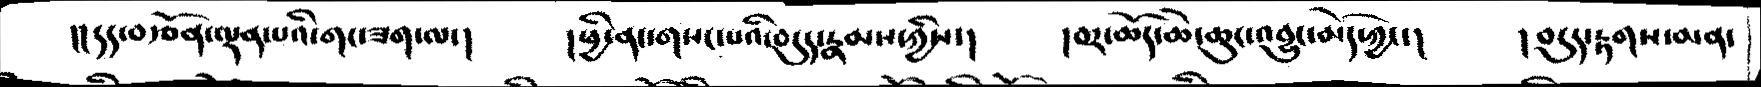།།དད་བརྩོན་ལྡན་པའི་གང་ཟག་ལ་།  །ཕྱི་ནང་གསང་པའི་བདུད་རྣམས་ཀྱིས་།   །བར་ཆོད་ཆེ་ཆུང་འབྱུང་མོད་ཀྱང་།   །བདུད་རྟགས་མན་
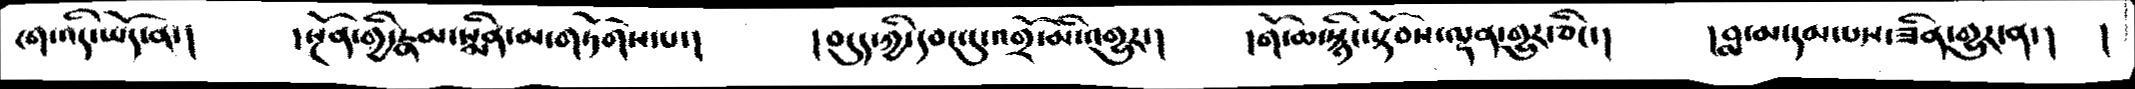ངག་འདི་ཡོད་ན་།   །སྔོན་གྱི་རྣམ་སྨིན་མ་གཏོགས་པ་།   །བདུད་ཀྱི་དབང་དུ་འགྲོ་མི་འགྱུར་།   །གོ་ཆ་སྙིང་སྟོབས་ལྡན་གྱུར་ཅིང་།   །བླ་མ་དམ་པས་ཟིན་གུར་ན་།   །
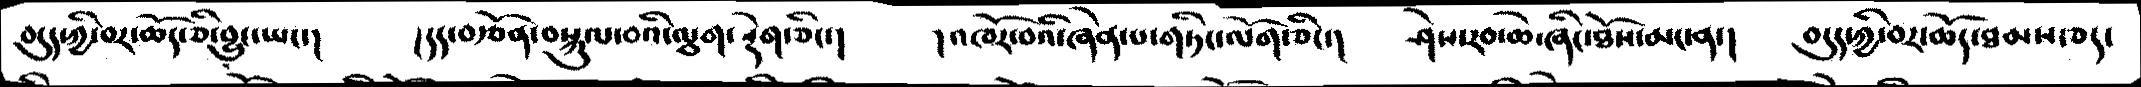བདུད་ཀྱི་བར་ཆོད་ཅི་བྱུང་ཡང་།   །དད་བརྩོན་བསྐུལ་བའི་ལྕག་སྡེག་ཅིང་།   །འཁོར་བའི་ཞེན་པ་གཏིང་ལོག་ཅིང་།   ཤེས་རབ་ཆེ་ཞིང་ཐོས་མང་ན་།  བདུད་ཀྱི་བར་ཆོད་ཐམས་ཅད་
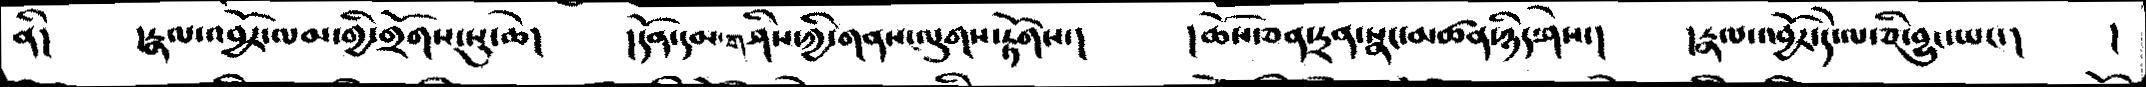ནི།   རྣལ་འབྱོར་ལམ་གྱི་གྲོགས་སུ་ཆེ།  དདོན་དམ་གཤིས་ཀྱི་གནས་ལུགས་རྟོགས་།   །ཆོས་ཅན་དྲན་སྣང་མཚན་ཉིད་ཤེས་།   །རྣལ་འབྱོར་དེ་ལ་ཅི་བྱུང་ཡང་།   །
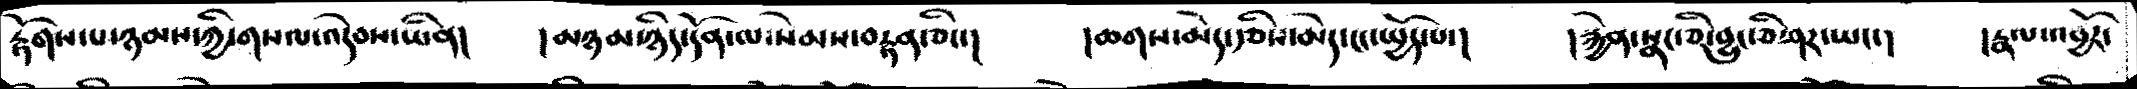རྟོགས་པ་ཉམས་ཀྱི་གསལ་འདེབས་ཡིན།   །མཉམ་ཉིད་དོན་ལ་སེམས་བརྟན་ཅིང་།   །ཆགས་མེད་རྩིས་མེད་ངང་སྤྱོད་པ་།   །རྐྱེན་སྣང་ཅི་བྱུང་ཅི་ཤར་ཡང་།   །རྣལ་འབྱོར་
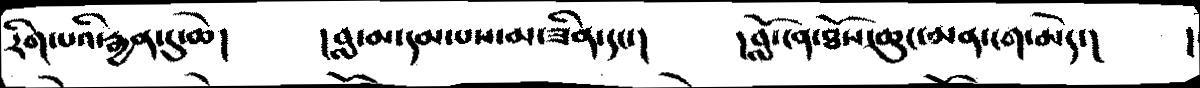རིགས་པའི་རྒྱན་དུ་ཆེ།   །བླ་མ་དམ་པས་མ་ཟིན་དང་།   །བློ་ངན་ཐོས་ཆུང་མན་ངག་མེད་།   །
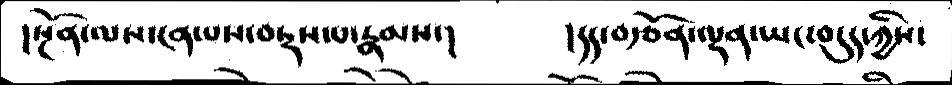།སྔོན་ལས་ངན་པས་བརྡས་པ་རྣམས་།   །དད་བརྩོན་ལྡན་ཡང་བདུད་ཀྱིས་
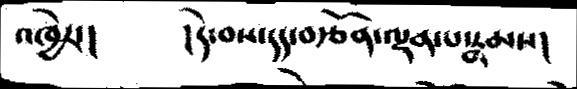འཁྱེར་།   །དེ་བས་དད་བརྩོན་ལྡན་པ་རྣམས།
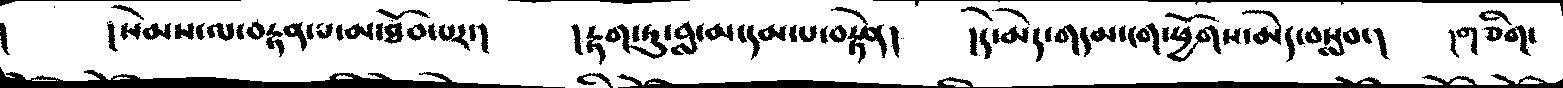།   །སེམས་ལ་བརྟན་པ་མ་ཐོབ་པར་།   །རྟག་ཏུ་བླ་མ་དམ་པ་བསྟེན།   །དེ་མེད་གདན་ངག་ཕྱོགས་མེད་བསླབ་།   །གཅིག་
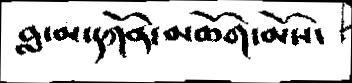བླ་མ་དཀོན་མཆོག་མོས་
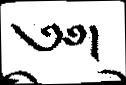༄༅།
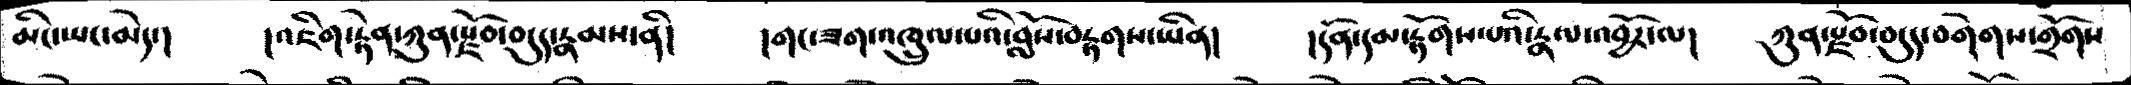མིང་ཡང་མེད་།   །འཇིག་རྟེན་ཀུན་རྫོབ་བདུད་རྣམས་ནི།   །གང་ཟག་འཁྲུལ་པའི་བློས་བརྟགས་ཡིན།   །དོན་དམ་རྟོགས་པའི་རྣལ་འབྱོར་ལ།   ཀུན་རྫོབ་བདུད་བགེགས་གྲོགས
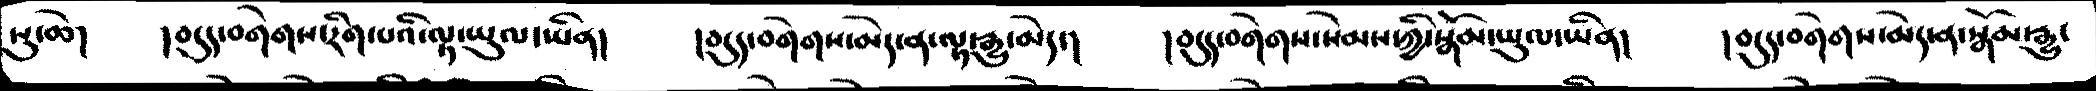སུ་ཆེ།   །བདུད་བགེགས་རིགས་པའི་ལྟ་ཡུལ་ཡིན།   །བདུད་བགེགས་མེད་ན་ལྟ་རྒྱུ་མེད་།   །བདུད་བགེགས་སེམས་ཀྱི་སྣོམ་ཡུལ་ཡིན།   །བདུད་བགེགས་མེད་ན་སྒོམ་རྒྱུ་
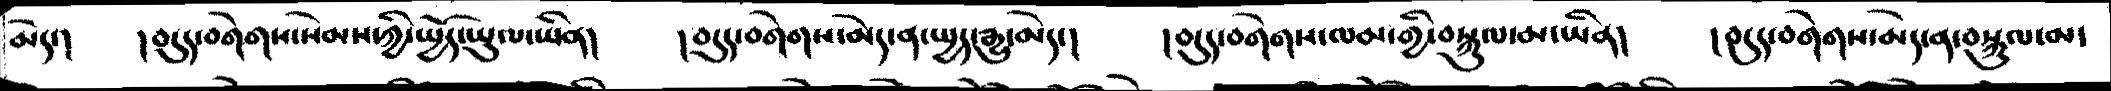མེད་།  །བདུད་བགེགས་སེམས་ཀྱི་སྤྱོད་ཡུལ་ཡིན།  །བདུད་བགེགས་མེད་ན་སྤྱད་རྒྱུ་མེད་།   །བདུད་བགེགས་ལམ་གྱི་བསྐུལ་མ་ཡིན།  །བདུད་བགེགས་མེད་ན་བསྐུལ་མ་
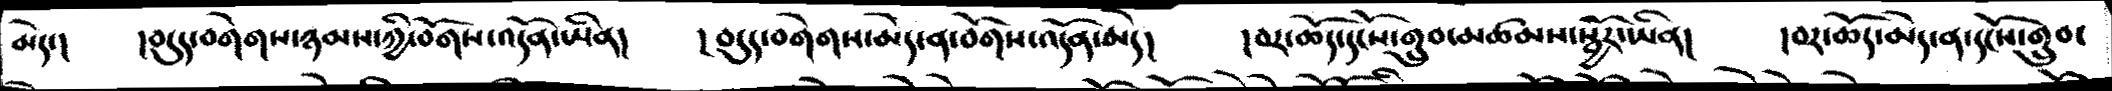མེད་།  །བདུད་བགེགས་ཉམས་ཀྱི་བོགས་འདོན་ཡིན།   །བདུད་བགེགས་མེད་ན་བོགས་འདོན་མེད།   །བར་ཆོད་དངོས་གྲུབ་མཚམས་སྦྱོར་ཡིན།  །བར་ཆོད་མེད་ན་དངོས་གྲུབ་
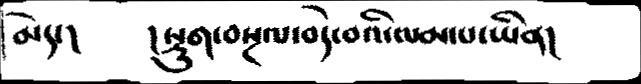མེད་།  །སྡུག་བསྔལ་བདེ་བའི་ལམ་པ་ཡིན།
